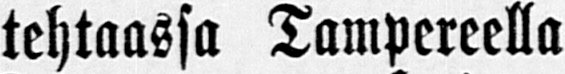tehtaassa Tampereella
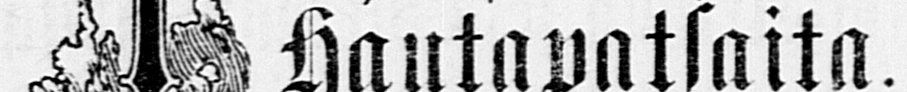Hautapatsaita.
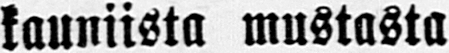kauniista mustasta
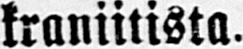kraniitista.
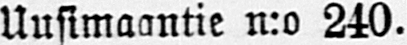Uusimaantie n:o 240.
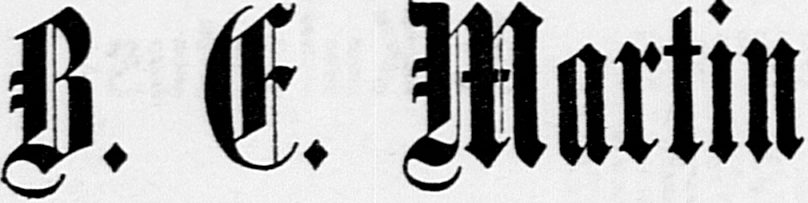B. E. Martin
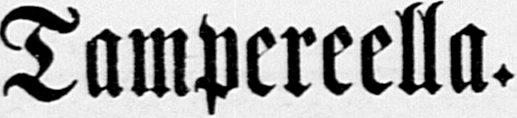Tampereella.
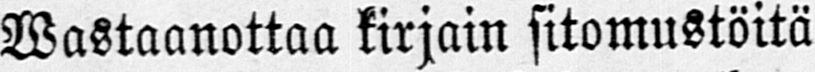Wastaanottaa kirjain sitomustöitä
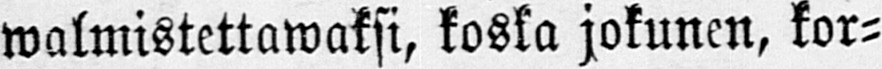walmistettawaksi, koska jokunen, kor-
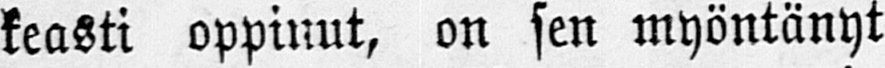keasti oppinut, on sen myöntänyt
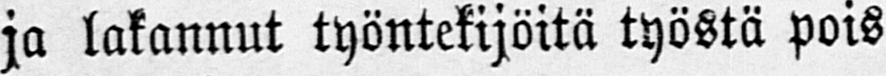ja lakannut työntekijöitä työstä pois
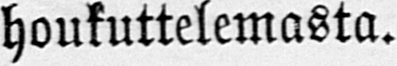houkuttelemasta.
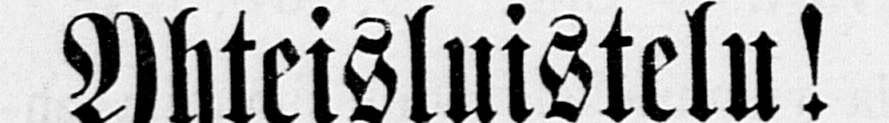Yhteisluistelu!
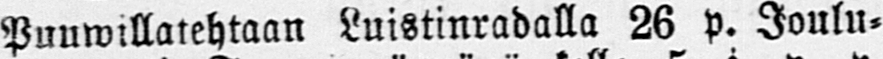Puuwillatehtaan Luistinradalla 26 p. Joulu-
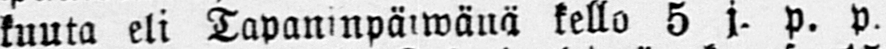kuuta eli Tapaninpäiwänä kello 5 j. p. p.
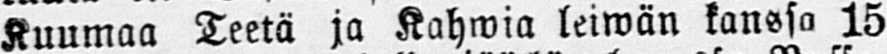Kuumaa Teetä ja Kahwia leiwän kanssa 15
